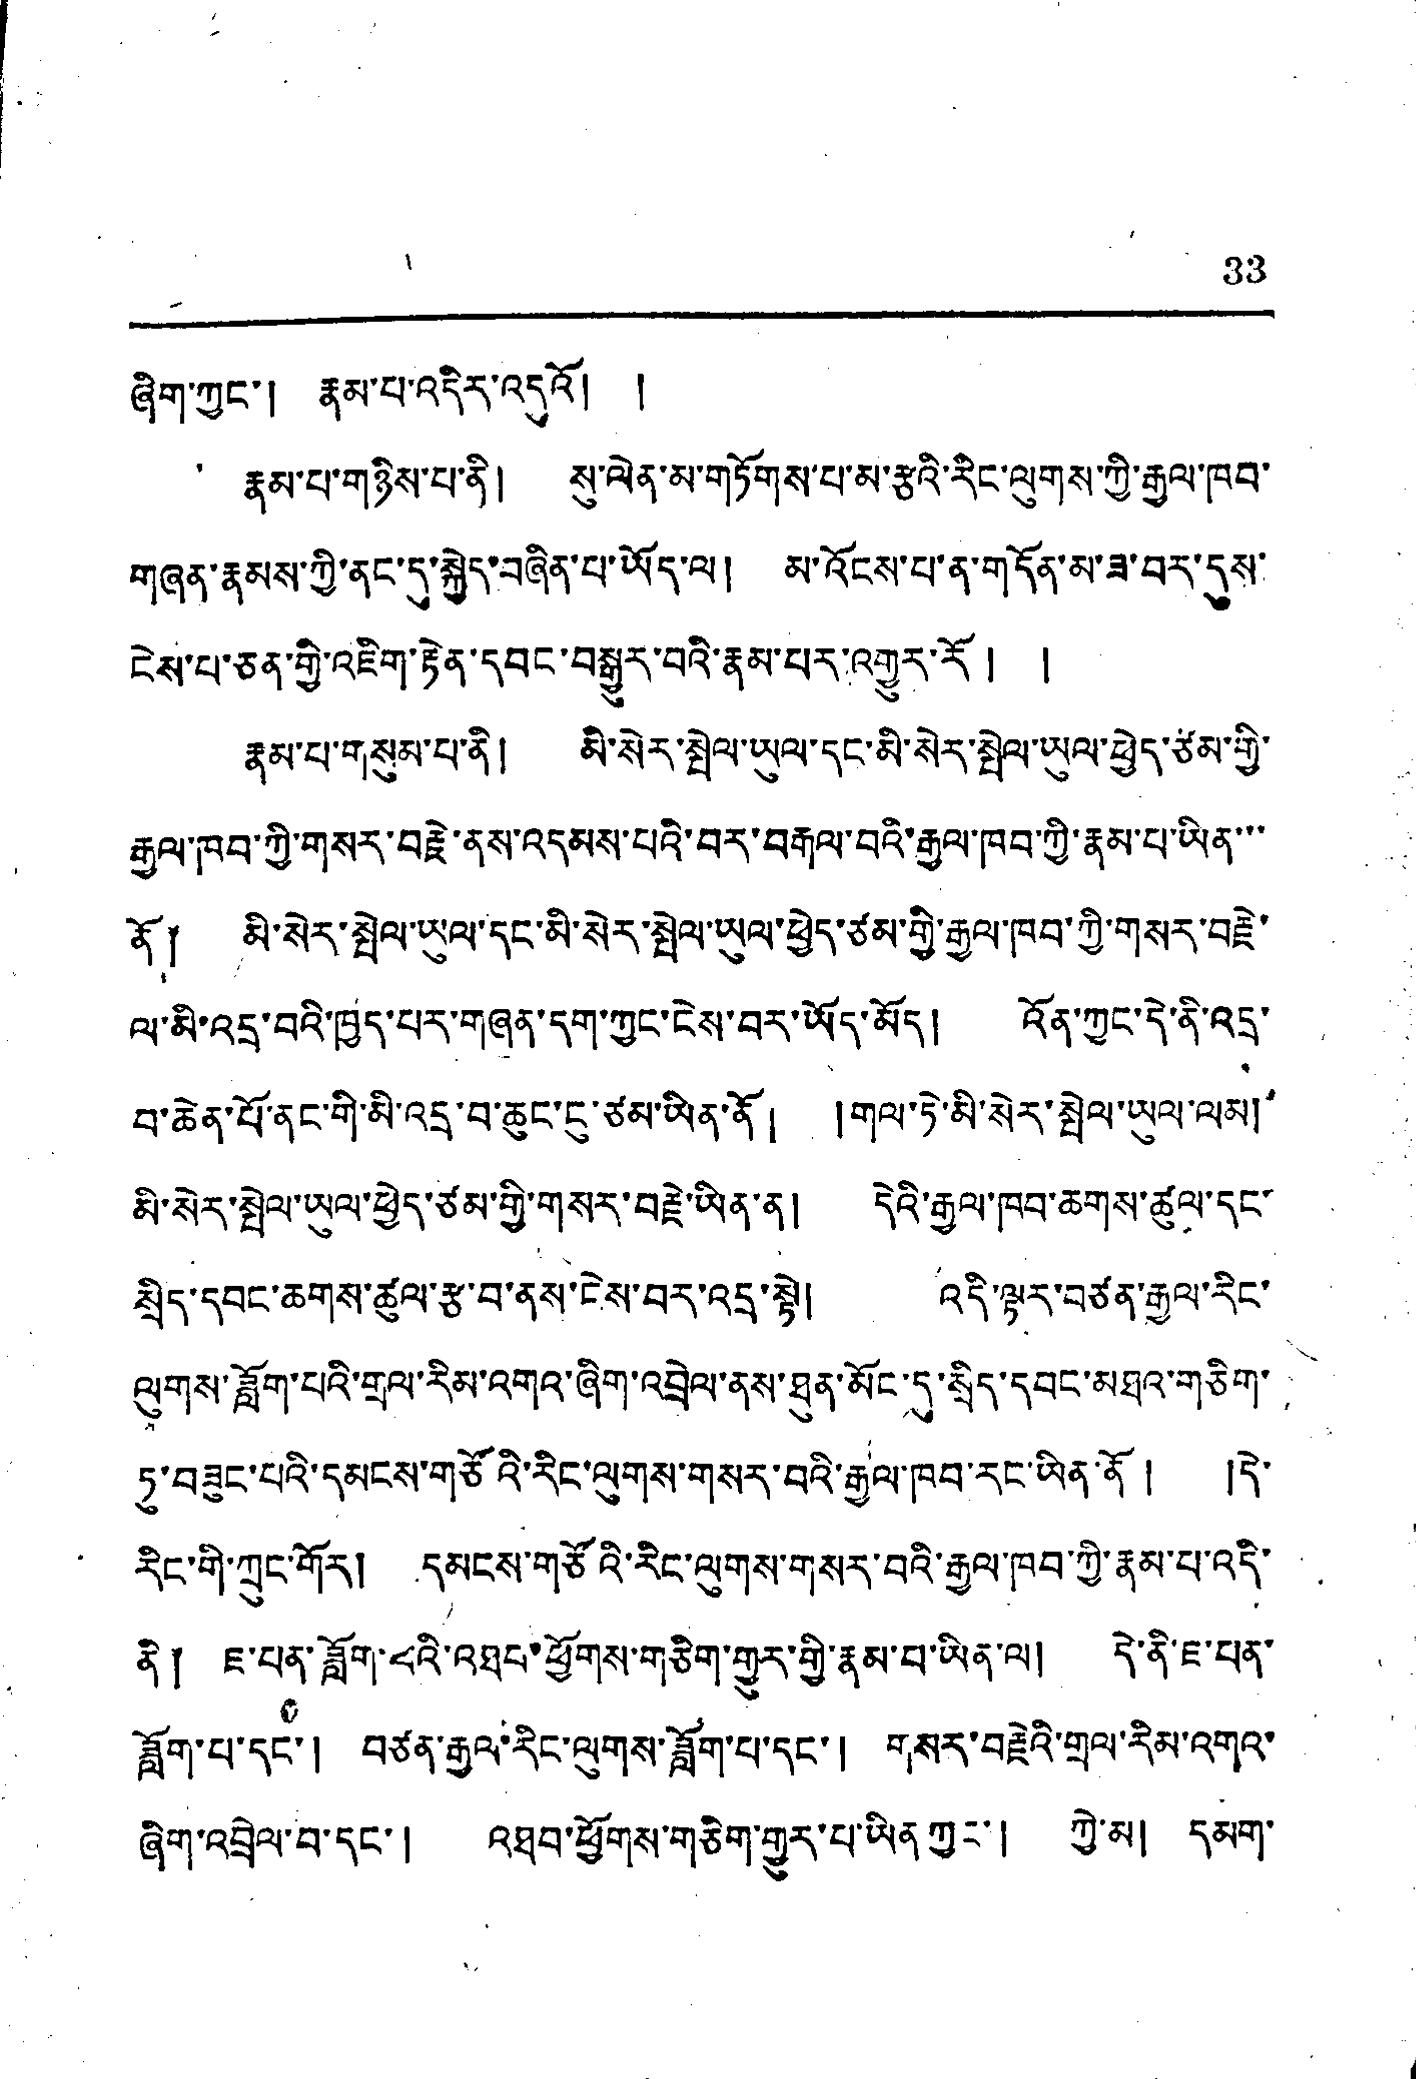33
ཞིག་ཀྱང་། རྣམ་པ་འདིར་འདུའོ། །
རྣམ་པ་གཉིས་པ་ནི། སུ་ལེན་མ་གཏོགས་པ་མ་རྩའི་རིང་ལུགས་ཀྱི་རྒྱལ་ཁབ་
གཞན་རྣམས་ཀྱི་ནང་དུ་སྐྱེད་བཞིན་པ་ཡོད་ལ། མ་འོངས་པ་ན་གདོན་མ་ཟ་བར་དུས་
ངེས་པ་ཅན་གྱི་འཇིག་རྟེན་དབང་བསྒྱུར་བའི་རྣམ་པར་འགྱུར་རོ། །
རྣམ་པ་གསུམ་པ་ནི། མི་སེར་སྤེལ་ཡུལ་དང་མི་སེར་སྤེལ་ཡུལ་ཕྱེད་ཙམ་གྱི་
རྒྱལ་ཁབ་ཀྱི་གསར་བརྗེ་ནས་འདམས་པའི་བར་བརྒལ་བའི་རྒྱལ་ཁབ་ཀྱི་རྣམ་པ་ཡིན་་་
ནོ། མི་སེར་སྤེལ་ཡུལ་དང་མི་སེར་སྤེལ་ཡུལ་ཕྱེད་ཙམ་གྱི་རྒྱལ་ཁབ་ཀྱི་གསར་བརྗེ་
ལ་མི་འདྲ་བའི་ཁྱད་པར་གཞན་དག་ཀྱང་ངེས་བར་ཡོད་མོད། འོན་ཀྱང་དེ་ནི་འདྲ་
བ་ཆེན་པོ་ནང་གི་མི་འདྲ་བ་ཆུང་ངུ་ཙམ་ཡིན་ནོ། །གལ་ཏེ་མི་སེར་སྤེལ་ཡུལ་ལམ།
མི་སེར་སྤེལ་ཡུལ་ཕྱེད་ཙམ་གྱི་གསར་བརྗེ་ཡིན་ན། དེའི་རྒྱལ་ཁབ་ཆགས་ཚུལ་དང་
སྲིད་དབང་ཆགས་ཚུལ་རྩ་བ་ནས་ངེས་བར་འདྲ་སྟེ། འདི་ལྟར་བཙན་རྒྱལ་རིང་
ལུགས་ཟློག་པའི་གྲལ་རིམ་འགའ་ཞིག་འབྲེལ་ནས་ཐུན་མོང་དུ་སྲིད་དབང་མཐའ་གཅིག་
ཏུ་བཟུང་པའི་དམངས་གཙོའི་རིང་ལུགས་གསར་བའི་རྒྱལ་ཁབ་རང་ཡིན་ནོ། །དེ་
རིང་གི་ཀྲུང་གོར། དམངས་གཙོའི་རིང་ལུགས་གསར་བའི་རྒྱལ་ཁབ་ཀྱི་རྣམ་པ་འདི་
ནི། ཇ་པན་ཟློག་པའི་འཐབ་ཕྱོགས་གཅིག་གྱུར་གྱི་རྣམ་པ་ཡིན་ལ། དེ་ནི་ཇ་པན་
ཟློག་པ་དང་། བཙན་རྒྱལ་རིང་ལུགས་ཟློག་པ་དང་། གསར་བརྗེའི་གྲལ་རིམ་འགའ་
ཞིག་འབྲེལ་བ་དང་། འཐབ་ཕྱོགས་གཅིག་གྱུར་པ་ཡིནཀྱང་། ཀྱེ་མ། དམག་
